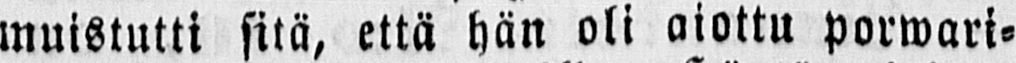muistutti sitä, että hän oli aiottu porwari-
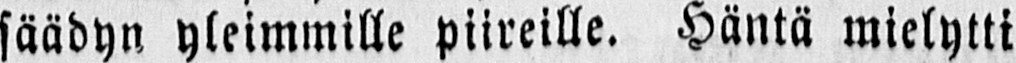säädyn yleimmille piireille. Häntä mielytti
